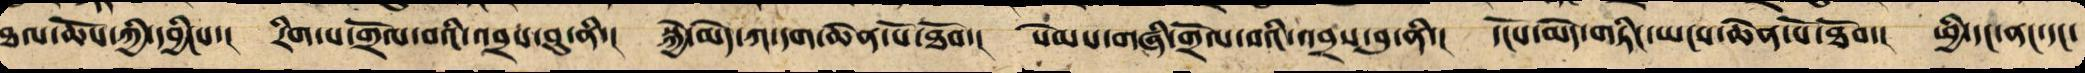ཐལ་ཆོས་ཀྱི་དབྱིངས་། རིག་པ་གྲོལ་བའི་འབྲས་བུ་ནི་། སྐྱེ་མེད་ཀ་དག་ཆེན་པོ་ཐོབ་། སེམས་གཞི་གྲོལ་བའི་འབྲས་བུ་ནི་། དངོས་མེད་གཏིང་ཡངས་ཆེན་པོ་ཐོབ་། ཕྱི་དང་ནང་དང་
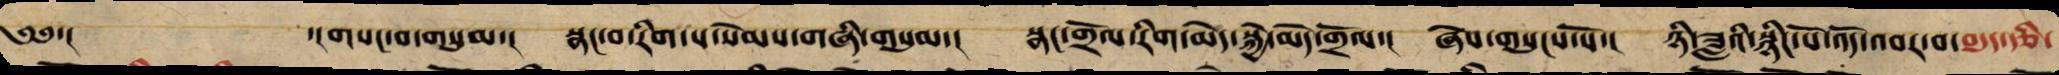༄༅་། ་།གསང་བ་གསུམ་། སྣང་བ་རིག་པ་སེམས་གཞི་གསུམ་། སྣང་གྲོལ་རིག་མེད་སྐྱེ་མེད་གྲོལ་། ཞེས་གསུངས་སོ་། ཉི་ཟླའི་སྙིང་པོ་འོད་འབར་བ་བདུད་རྩི་
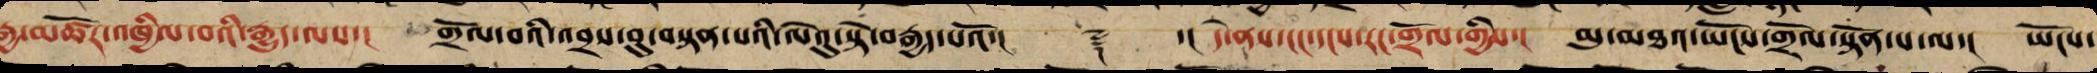རྒྱ་མཚོར་འཁྱིལ་པའི་རྒྱུད་ལས་། གྲོལ་བའི་འབྲས་བུ་བསྟན་པའི་ལེའུ་སྟེ་བརྒྱད་པའོ་།། ༈ ་།། དེ་ནས་ངང་དངས་རང་གྲོལ་གྱིས་། མུ་མཐའ་ཡོངས་གྲོལ་སྟོན་པ་ལ་། ཡོངས་
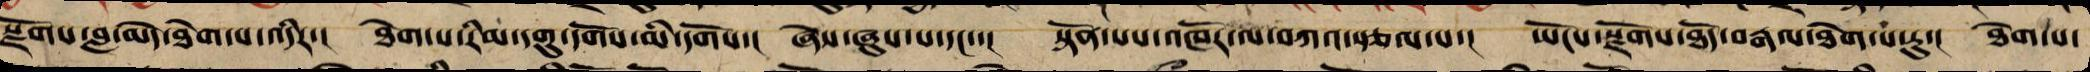སྫོགས་བླ་མེད་ཐེག་པ་འདིར་། ཐེག་པ་རིམ་དགུ་དགོས་མི་དགོས་། ཞེས་ཞུས་པ་དང་་། སྟོན་པས་འཁོར་ལ་བཀའ་སྩལ་པ་། ཡོངས་སྫོགས་ཐོད་བརྒལ་ཐེག་པ་རུ་། ཐེག་པ་
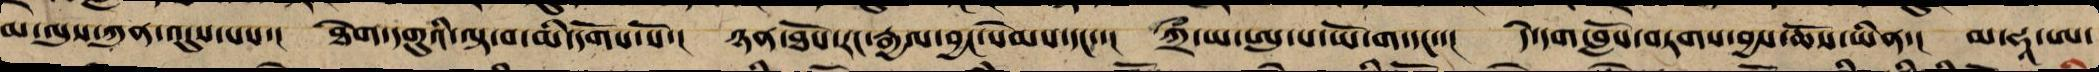མ་ལུས་ཀུན་འདུས་པས་། ཐེག་དགུའི་ལྟ་བ་མི་དགོས་སོ་། ཉན་ཐོས་རང་རྒྱལ་བྱང་སེམས་དང་་། ཀྲྀ་ཡ་ཨུ་པ་ཡོ་ག་དང་་། དེ་དག་བློས་བཏགས་བྱས་ཆོས་ཡིན་། མ་ཧཱ་ཨ་
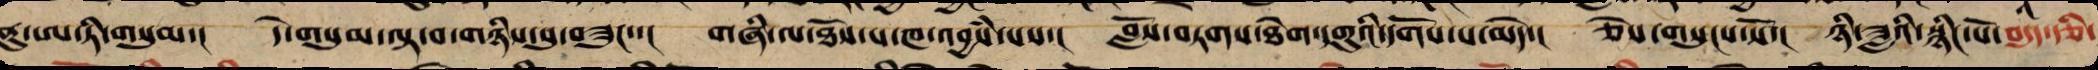ནུ་ཨ་ཏི་གསུམ་། དེ་གསུམ་ལྟ་བ་གཉིས་སུ་བཟུང་་། གཞི་ལ་ཐོས་པ་ཁ་འབྱཾས་པས་། བློས་བཏགས་ཐེག་དགུའི་དགོས་པ་མེད་། ཅེས་གསུངས་སོ་། ཉི་ཟླའི་སྙིང་པོ་བདུད་རྩི་
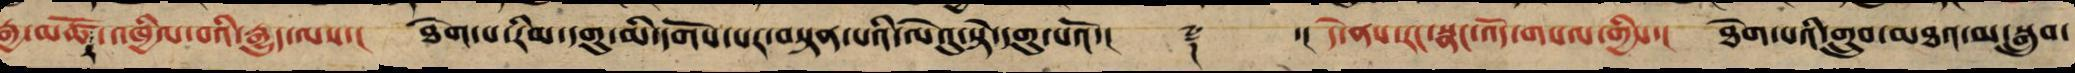རྒྱ་མཚོ་འཁྱིལ་པའི་རྒྱུད་ལས་།   ཐེག་པ་རིམ་དགུ་མི་དགོས་པར་བསྟན་པའི་ལེའུ་སྟེ་དགུ་པའོ་།།   ༈ ་།   དེ་ནས་རང་སྣང་འོད་གསལ་གྱིས་།    ཐོག་པའི་གྲུབ་མཐའ་མ་སྒྲུབ་
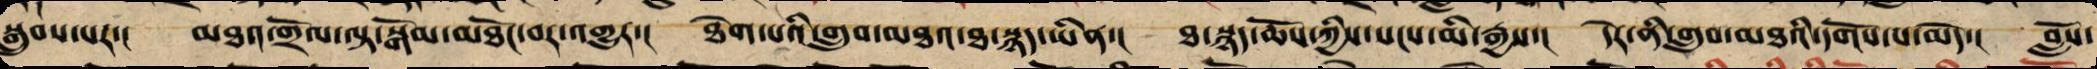སྒྲུབས་པར་། མཐའ་གྲོལ་ལྟ་བསྒོམ་མཐོང་བར་འགྱུར་། ཐེག་པའི་གྲུབ་མཐའ་ཐ་སྙད་ཡིན་། ཐ་སྙད་ཆོས་ཀྱིས་སངས་མི་རྒྱས་། དེར་ནི་གྲུབ་མཐའི་དགོས་པ་མེད་། བློས་
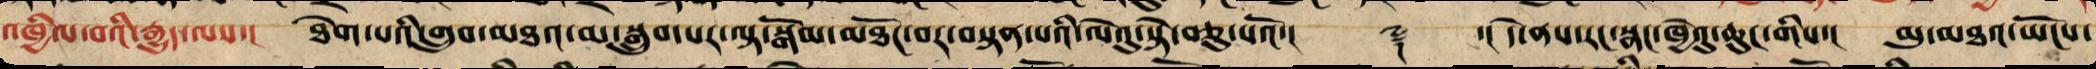འཁྱིལ་བའི་རྒྱུད་ལས་། ཐེག་པའི་གྲུབ་མཐའ་མ་སྒྲུབ་པར་ལྟ་སྒོམ་མཐོང་བར་བསྟན་པའི་ལེའུ་སྟེ་བཅུ་པའོ་།། ༈ ་། དེ་ནས་རང་སྣང་ཁྱེའུ་ཆུང་གིས་། མུ་མཐའ་ཡོངས་
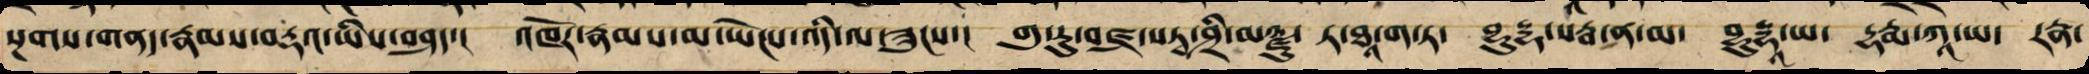སྔགས་གནད་རྣམས་བརྡའ་ཡིས་བཤད་། འཁོར་རྣམས་མ་ཡེངས་འདི་ལ་ཟུངས་། གུ་རུ་བཛྲ་སཏྭ་ཤྲཱི་མཉྫུ་ ཏ་ཐཱ་ག་ཏ་ བྷུདྡྷ་སརྦ་ན་མ་ བྷུདྡྷཱ་ཡ་ དྷརྨ་ཀཱ་ཡ་ རཏྣ་
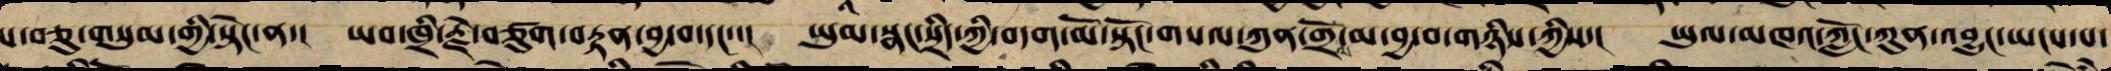པ་བཅུ་གསུམ་གྱི་སྟེང་ན་། ཡབ་ཁྲི་རྗེ་བཙུག་བརྟན་བྱ་བ་དང་་། ཡུམ་སྣང་སྲིད་ཀྱི་བདག་མོ་སྟོང་གསལ་ཀུན་གྲོ་མ་བྱ་བ་གཉིས་ཀྱིས་། ཡུལ་མཁའ་ཀློང་ཀུན་འབྱུང་ཡངས་པ་
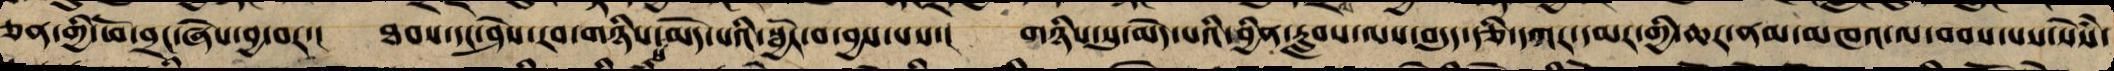ཅན་གྱི་ཕོ་བྲང་ཞེས་བྱ་བར་། ཐབས་དང་ཤེས་རབ་གཉིས་མེད་པའི་སྦྱོར་བ་བྱས་པས་། གཉིས་སུ་མེད་པའི་བྱིན་རླབས་ལས་བདུད་རྩི་དཀར་དམར་གྱི་ཆར་ནམ་མཁའ་ལ་བབས་པས་སེཾས་
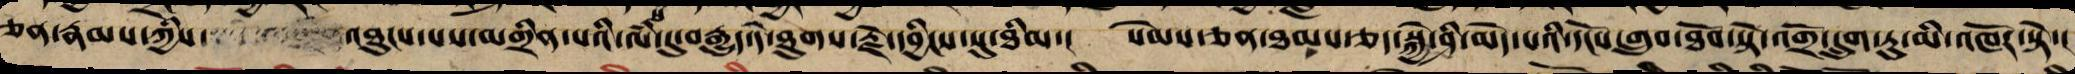ཅན་རྣམས་ཀྱིས་འཐུངས་པས་མགྲིན་པའི་ལཾ་དུ་བརྒྱུད་དེ་ཐུགས་རྗེ་དབྱིངས་སུ་ཐིམ་། སེམས་ཅན་ཐམས་ཅད་སྐྱེ་ཤི་མེད་པའི་དངོས་གྲུབ་ཐོབ་སྟེ་འགྲོ་དྲུག་རུ་མི་འཁོར་ཏེ་།
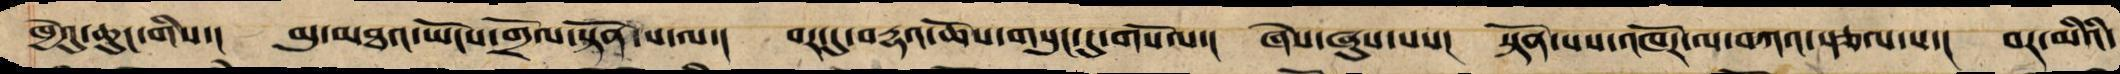ཁྱེའུ་ཆུང་གིས་། མུ་མཐའ་ཡོངས་གྲོལ་སྟོན་པ་ལ་། བར་དུ་བརྡའ་ཆོས་གསུང་དུ་གསོལ་། ཞེས་ཞུས་པས་། སྟོན་པས་འཁོར་ལ་བཀའ་སྩལ་པ་། བར་མིའི་
